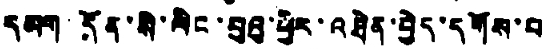དམག དོན་སི་ལིང་པུའུ་ཕྱིར་འཐེན་བྱེད་དགོས་པ
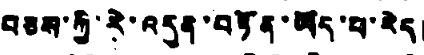བཅས་ཀྱི་རེ་འདུན་བཏོན་ཡོད་པ་རེད།
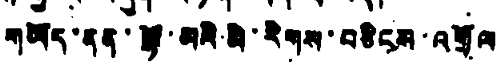གཡོད་ནན་ལྷོ་མའི་མི་རིགས་བཅིངས་འགྲོལ
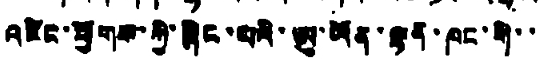འཛིང་ཕྱོགས་ཀྱི་ཞིང་པའི་ཨུ་ཡོན་ལྷན་ཁང་གི་་
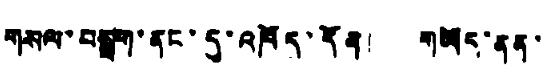གསལ་བསྒྲག་ནང་དུ་འཁོད་དོན། གཡོད་ནན་
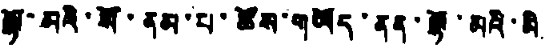ལྷོ་མའི་སོ་ནམ་པ་ཚོས་གཡོད་ནན་ལྷོ་མའི་མི
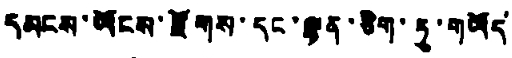དམངས་ཡོངས་རྫོགས་དང་ལྷན་ཅིག་ཏུ་གཡོད་
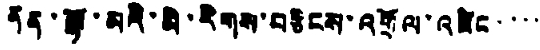ནན་ལྷོ་མའི་མི་རིགས་བཅིངས་འགྲོལ་འཛིང་་་་
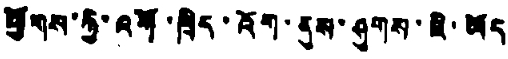ཕྱོགས་ཀྱི་འགོ་ཁྲིད་འོག་ནུས་ཤུགས་ཇི་ཡོད་
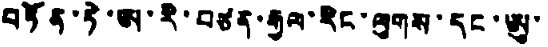བཏོན་ཏེ་ཨ་རི་བཙན་རྒྱལ་རིང་ལུགས་དང་ཨུ་
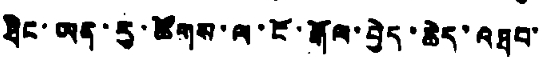ཐིང་ཡན་རུ་ཚོགས་ལ་ངོ་རྒོལ་བྱེད་ཆེར་འཐབ་
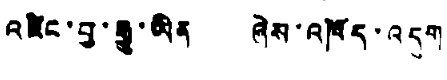འཛིང་བྱ་རྒྱུ་ཡིན ཞེས་འཁོད་འདུག
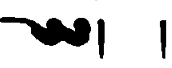༄༅། །
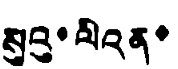སུའུ་ལིའན་
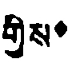གྱིས་
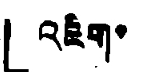「འཇིག་
